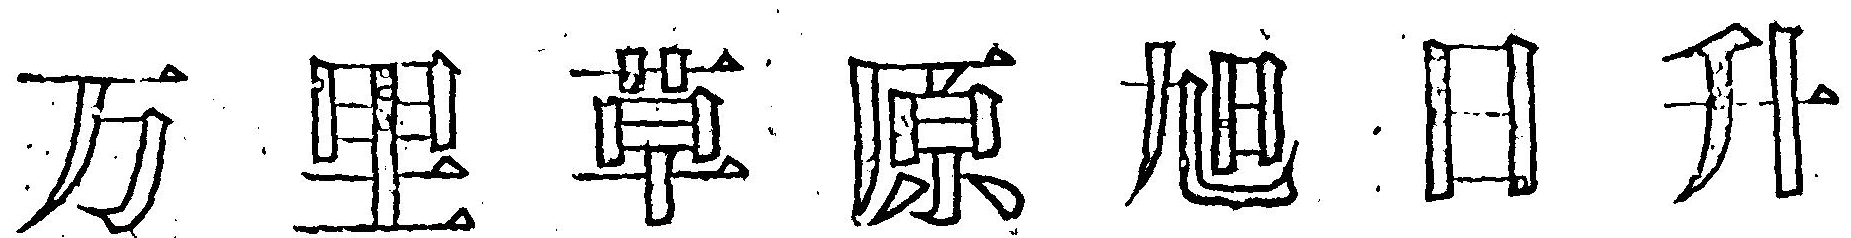万 里 草 原 旭 日 升
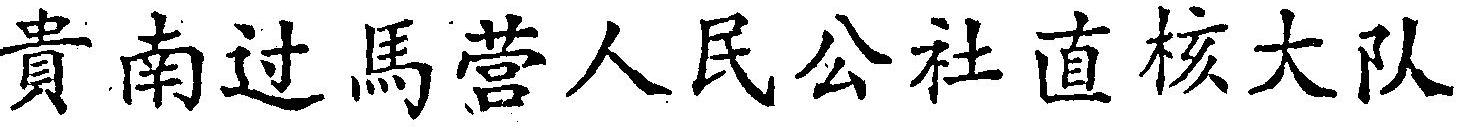貴南过馬营人民公社直核大队
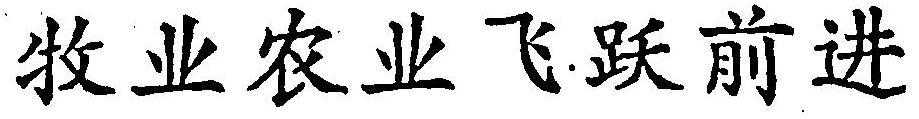牧业农业民飞跃前进
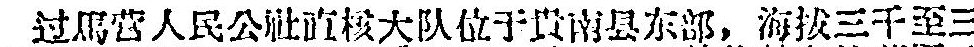过馬营人民公社直核大队位于貴南县东部，海拔三千至三
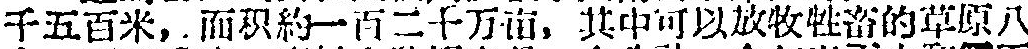千五百米，面积約一百二十万亩，其中可以放牧牲畜的草原八
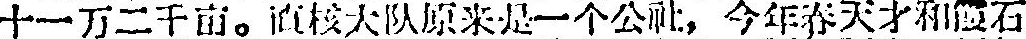十一万二千亩。直核大队原来是一个公社，今年春天才和霞石
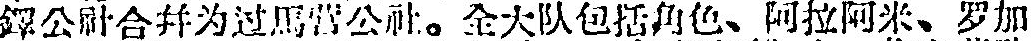鐸公社合并为过馬营公社。全大队包括角色、阿拉阿米、罗加
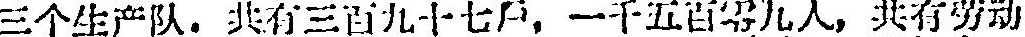三个生产队，共有三百九十七戶，一千五百零九人，共有劳动
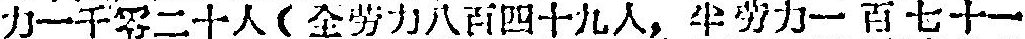力一千零二十人（全劳力八百四十九人，半劳力一百七十一
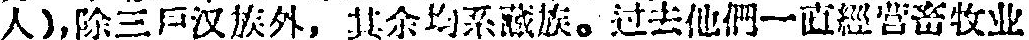人），除三戶汉族外，其余均系藏族。过去他們一直經营畜牧业
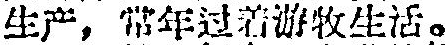生产，常年过有游牧生活。
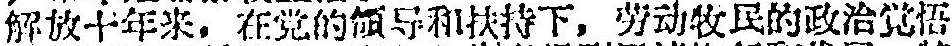解放十年来，在党的領导和扶持下，劳动牧民的政治覚悟
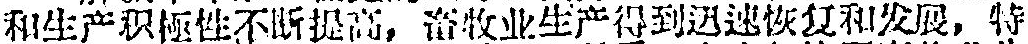和生产积極性不断提高，畜牧业生产得到迅速回复和发展，特
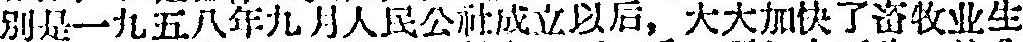別是一九五八年九月人民公社成立以后，大大加快了畜牧业生
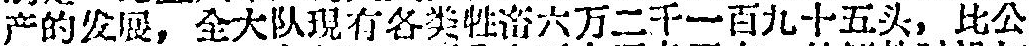产的发展，全大队現有各类牲畜六万二千一百九十五头，比公
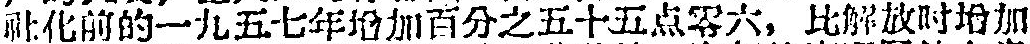社化前的一九五七年增加百分之五十五点零六，比解放时增加
